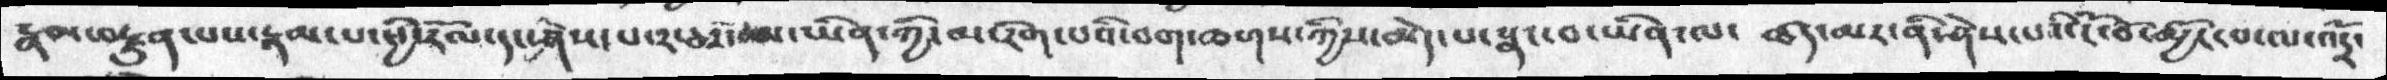རྣམ་བརྫུན་པས་རྣམ་པ་ཕྱི་རོལ་དང་ཤེས་༢་ཅར་མ་ཡིན་ཀྱི་མ་རིག་པའི་བག་ཆགས་ཀྱིས་མེད་པ་སྣང་བ་ཡིན་ལ་ ཚད་མར་ནི་ཤེས་པའི་ངོ་བོ་མྱོང་པ་ལ་འདྲོ་
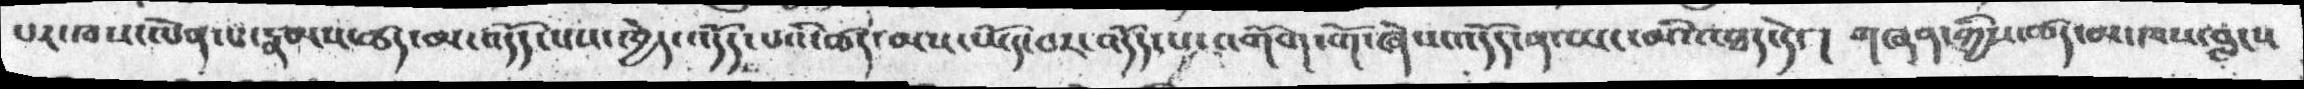པར་ཁས་ལེན་པ་རྣམས་ཚད་མ་འདོད་པས་ཁྱེད་འདོད་པའི་ཚད་མས་ཡོད་པར་འདོད་པ་འགོག་གོ་ཞེས་འདོད་ན་ཡང་མི་འཐད་དེ་། གཞན་གྱིས་ཚད་མ་ཁས་བླངས
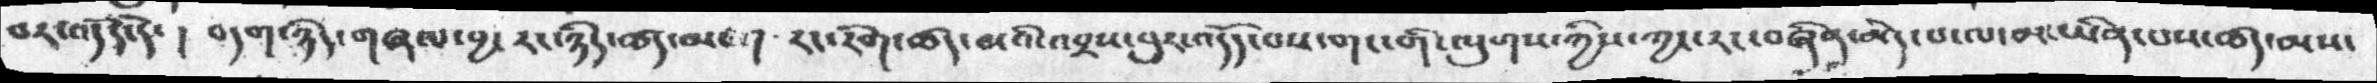བར་འདོད་དེ་། བདག་ཉིད་གཞལ་བྱ་རང་ཉིད་ཚད་མ ། རང་རིག་ཚད་མའི་འབྲས་བུར་འདོད་པས་གང་གི་ལུགས་ཀྱིས་ཀྱང་རང་བཞིན་མེད་པ་ལ་མ་ཡིན་པས་ཚད་མས་
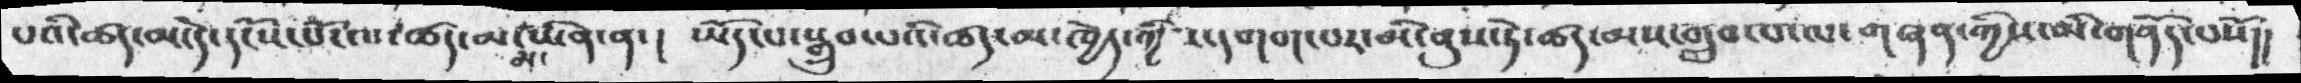པའི་ཚད་མ་དེ་དངོས་པོ་ལ་ཚད་མ་མ་ཡིན་ན་།  ཡོད་པ་སྒྲུབ་པའི་ཚད་མ་ཁྱེད་ཀྱི་དགག་པར་མི་ནུས་ཏེ་ཚད་མས་གྲུབ་པ་ལ་གཞན་གྱིས་མི་གནོད་པསོ།།
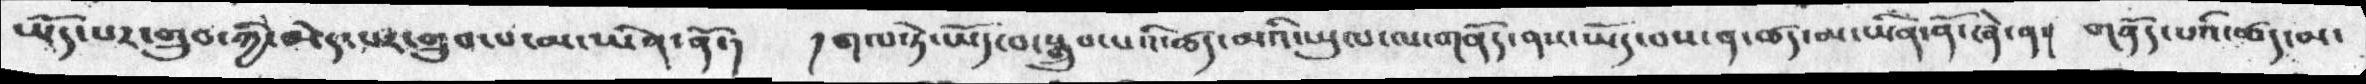ཡོད་པར་གྲུབ་ཀྱི་མེད་པར་གྲུབ་པ་མི་ཡིན་ནོ་།  །གལ་ཏེ་ཡོད་པ་སྒྲུབ་པའི་ཚད་མའི་ཡུལ་ལ་གནོད་ནས་ཡོད་པས་ན་ཚད་མ་ཡིན་ནོ་ཞེ་ན། གནོད་པའི་ཚད་མ་
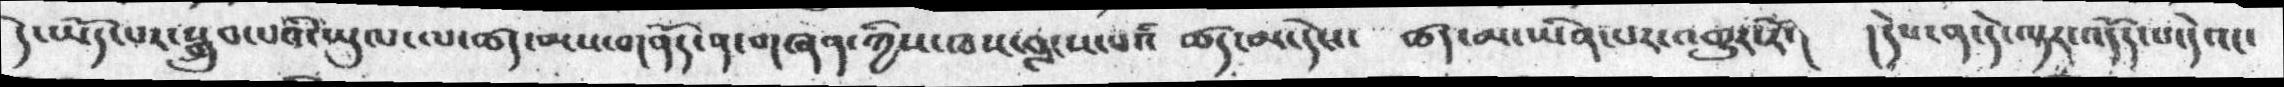དེ་ཡོད་པར་སྒྲུབ་པའི་ཡུལ་ལ་ཚད་མས་གནོད་ན་གཞན་ཀྱིས་ཁས་བླངས་པའི ཚད་མ་དེས་   ཚད་མ་ཡིན་པར་འགྱུར་ཏེ་།   །དེས་ན་དེ་ལྟར་འདོད་པ་དེའང་
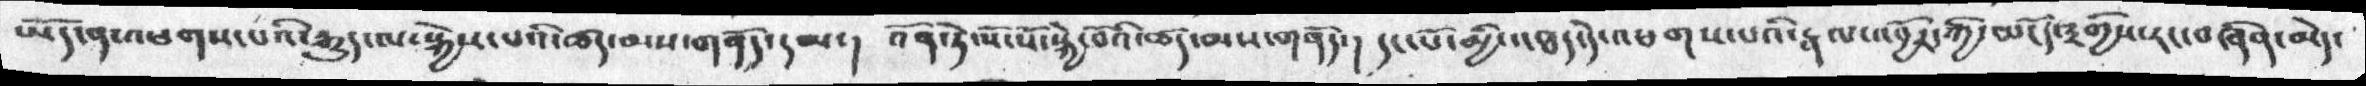ཡོད་ན་འཕགས་པའི་རྒྱུད་ལ་སྐྱེས་པའི་ཚད་མས་གནོད་དམ་། འོན་ཏེ་སོ་སོ་སྐྱེ་བོའི་ཚད་མས་གནོད་།  དང་པོ་མྱི་འཐད་དེ་འཕགས་པའི་རྣལ་འབྱོར་གྱི་མངོན་༣གྱིས་རང་བཞིན་མེད་
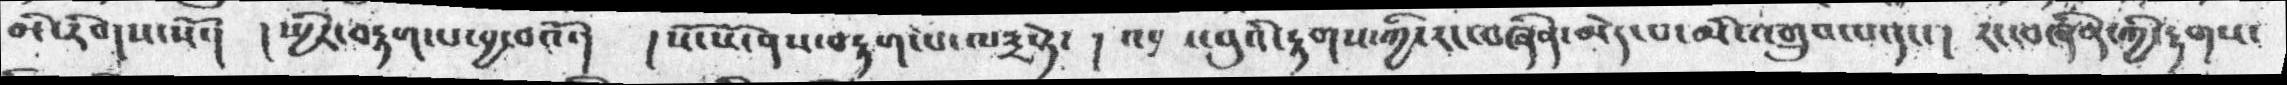མི་རིགས་སོ་།  །སྤྱིར་བརྟག་པ་བྱ་བའོ་།  ། སོ་སོ་ནས་བརྟག་པ་ལ༣སྟེ་ ། འབྲས་བུའི་རྟགས་ཀྱི་རང་བཞིན་མེད་པ་མི་འགྲུབ་པ་དང་། རང་བཞིན་གྱི་རྟགས་།
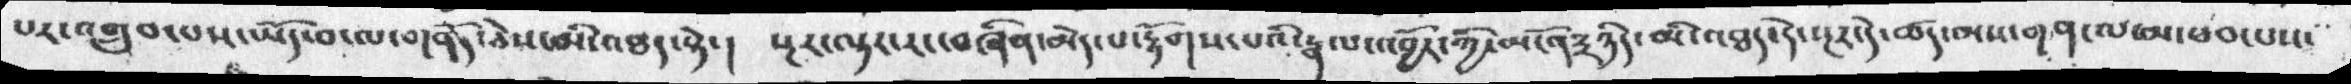པར་འགྲུབ་པས་ཡོད་བ་ལ་གནོད་ཅེས་མི་འཐད་སྟེ་། སྔར་ལྟར་རང་བཞིན་མེད་པ་རྟོགས་པའི་རྣལ་འབྱོར་གྱི་མངོན༣ཉིད་མི་འཐད་དེ་ཚད་པས་གནད་པ་མ་ཕབ་པས་ས་
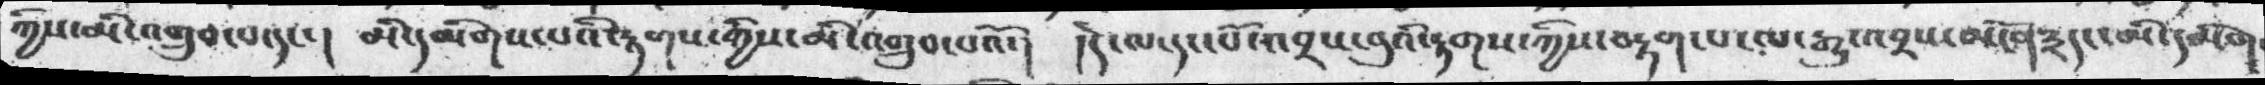ཀྱིས་མི་འགྲུབ་པ་དང་། མི་དམིགས་པའི་རྟགས་ཀྱིས་མི་འགྲུབ་པའོ་།  །དེ་ལ་དང་པོ་འབྲས་བུའི་རྟགས་ཀྱིས་བརྟག་པ་ལ་རྒྱུ་འབྲས་མངོན༣།དང་མི་དམིག་
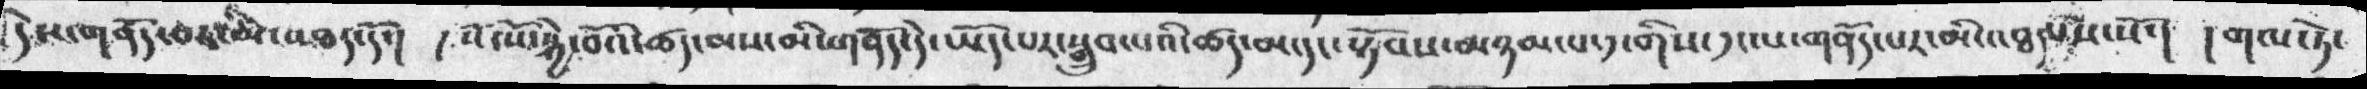དེས་གནོད་པར་མི་འཐད་དོ་།  ། སོ་སོ་སྐྱེ་བོའི་ཚད་མས་མི་གནོད་དེ་ཡོད་པར་སྒྲུབ་པའི་ཚད་མ་དང་སྟོབས་མཉམ་པ་༡་གིས་༡ལ་གནོད་པར་མི་འཐདཔས་སོ་། ། གལ་ཏེ་
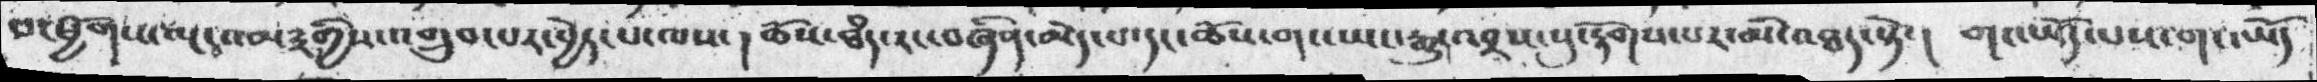བ་ཕྱོགས་ལྔ་འམ་༣གྱིས་འགྲུབ་པར་་བྱེད་པ་ལས་།  ཆོས་ཐཾད་རང་བཞིན་མེད་པ་དང་ཆོས་གང་ཡང་རྒྱུར་འབྲས་སུ་རྟོགས་པར་མི་འཐད་སྟེ་།  གང་ཡོད་པས་གང་ཡོད
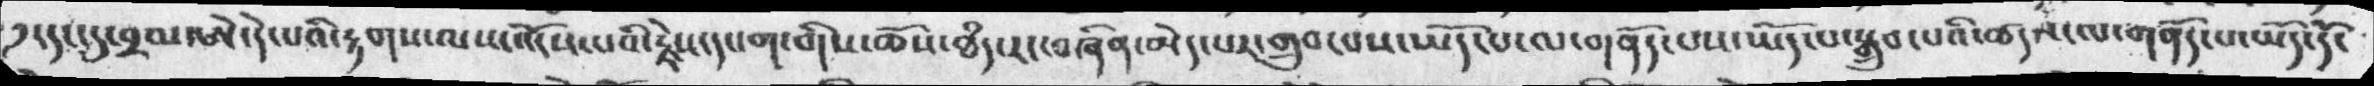༡་དང་དུ་བྲལ་ཨེ་དེ་པའི་རྟགས་ལས་འདོས་པའི་རྗེས་དཔག་གིས་ཆོས་ཐཾད་རང་བཞིན་མེད་པར་གྲུབ་པས་ཡོད་པ་ལ་གནོད་པས་ཡོད་པ་སྒྲུབ་པའི་ཚད་ལ་གནོད་པ་ཡོད་དོ་
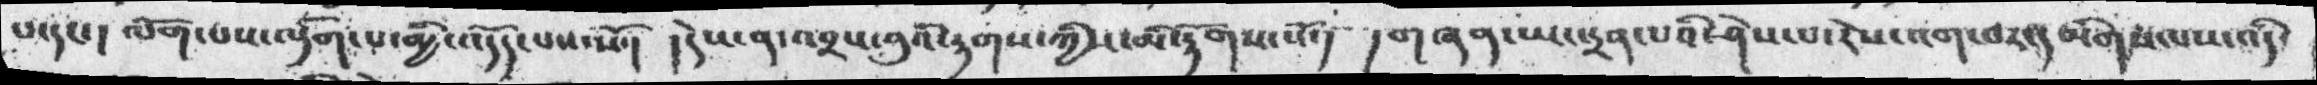པ་དང་། ལོག་པས་འདོག་པ་མྱི་འདོད་པས་སོ་། །དེས་ན་འབྲས་བུའི་རྟགས་ཀྱིས་མི་རྟོགས་སོ་།  །གཞན་ཡང་དྲན་པའི་ཤེས་པ་རེས་འག་བར་དམིགས་པས་འདི་
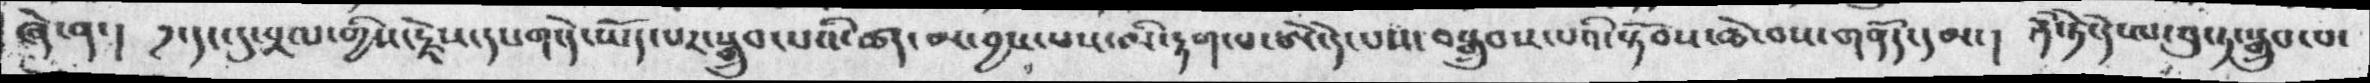ཞེ་ན་།  ༡་དང་དུ་བྲལ་གྱིས་རྗེས་དང་གང་དེ་ཡོད་པར་སྒྲུབ་པའི་ཚད་མ་བྱས་པས་མི་རྟག་པ་ཨེ་དེ་པས་བསྒྲུབས་པའི་སྟོབས་ཆེ་བས་གནོད་དམ་།  ན་ཏེ་དེ་ཨ་བུ་ཏ་སྒྲུབ་པ་
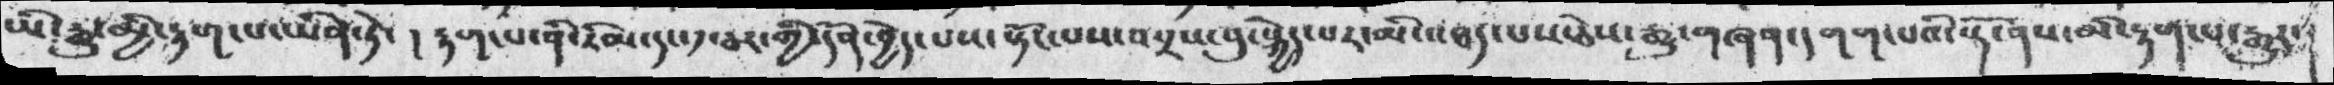ཡི་རྒྱུ་མྱི་རྟག་པ་ཡིན་ཏེ་ །རྟག་པ་ནི་རིམ་དང་༡་ཅར་གྱི་དོན་བྱེད་པས་སྟོང་པས་འབྲས་བུ་སྐྱེད་པར་མི་འཐད་པས་ཅེས་རྒྱུ་གཞན་དགག་པའི་སྒོ་ནས་མི་རྟག་པ་རྒྱུར་
